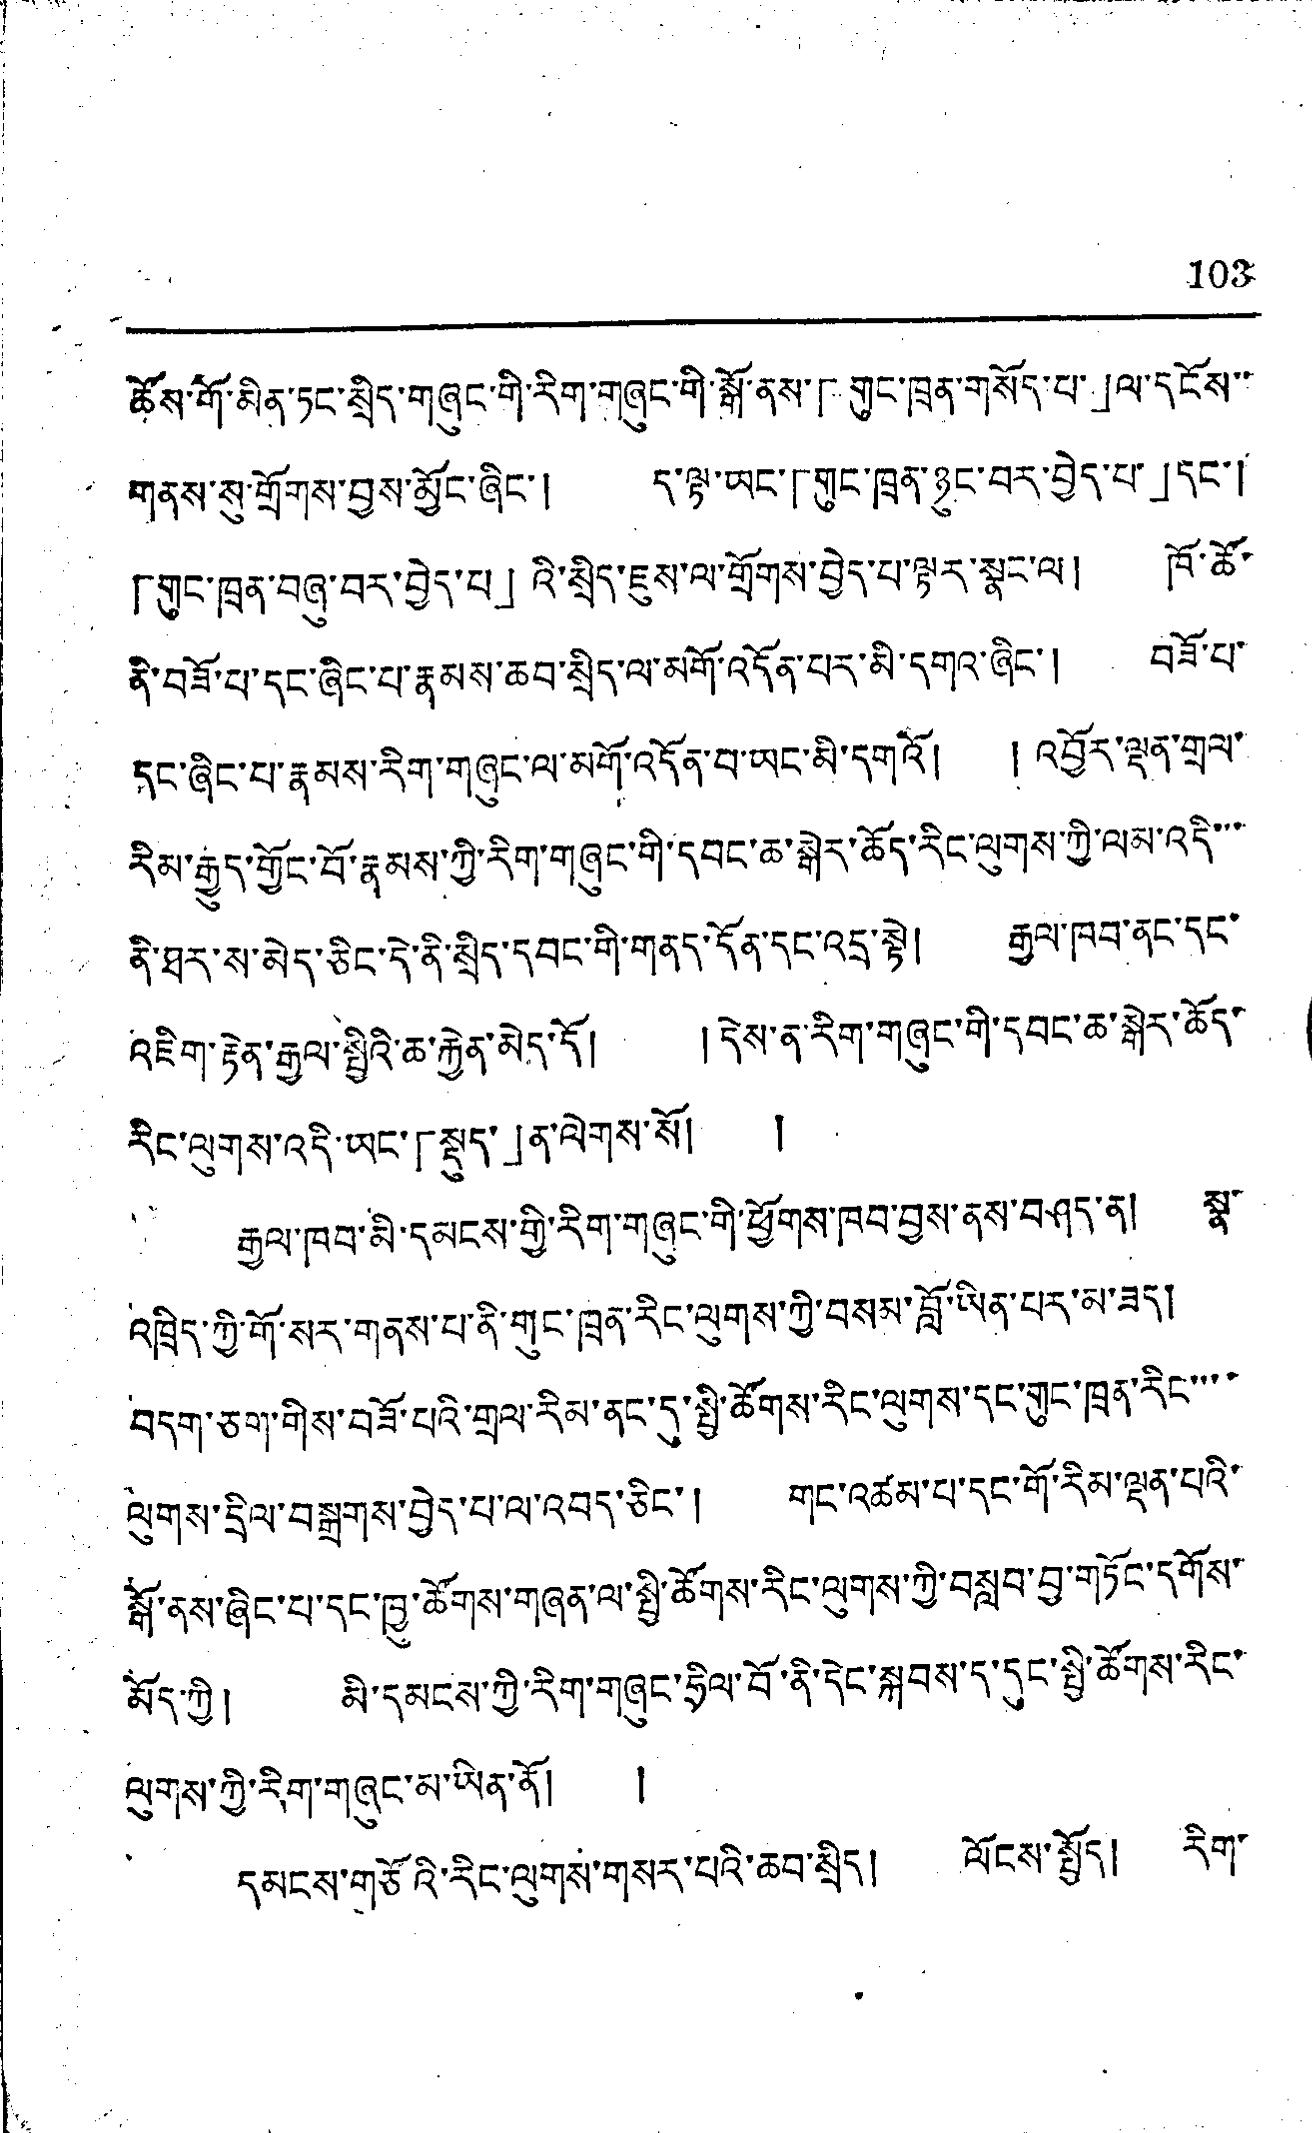103
ཚོས་གོ་མིན་ཏང་སྲིད་གཞུང་གི་རིག་གཞུང་གི་སྒོ་ནས་「གུང་ཁྲན་གསོད་པ་」ལ་དངོས་་
གནས་སུ་གྲོགས་བྱས་མྱོང་ཞིང་། ད་ལྟ་ཡང་「གུང་ཁྲན་ཉང་བར་བྱེད་པ་」དང་།
「གུང་ཁྲན་བཞུ་བར་བྱེད་པ」འི་སྲིད་ཇུས་ལ་གྲོགས་བྱེད་པ་ལྟར་སྣང་ལ། ཁོ་ཚོ་
ནི་བཟོ་པ་དང་ཞིང་པ་རྣམས་ཆབ་སྲིད་ལ་མགོ་འདོན་པར་མི་དགའ་ཞིང་། བཟོ་པ་
ཏང་ཞིང་པ་རྣམས་རིག་གཞུང་ལ་མགོ་འདོན་བ་ཡང་མི་དགའོ། །འབྱོར་ལྡན་གྲལ་
རིམ་རྒྱུད་གྱོང་བོ་རྣམས་ཀྱི་རིག་གཞུང་གི་དབང་ཆ་སྒེར་ཆོད་རིང་ལུགས་ཀྱི་ལམ་འདི་་་
ནི་ཐར་ས་མེད་ཅིང་དེ་ནི་སྲིད་དབང་གི་གནད་དོན་དང་འདྲ་སྟེ། རྒྱལ་ཁབ་ནང་དང་
འཇིག་རྟེན་རྒྱལ་སྤྱིའི་ཆ་རྐྱེན་མེད་དོ། །དེས་ན་རིག་གཞུང་གི་དབང་ཆ་སྒེར་ཆོད་
རིང་ལུགས་འདི་ཡང་「སྡུད་」ན་ལེགས་སོ། །
རྒྱལ་ཁབ་མི་དམངས་གྱི་རིག་གཞུང་གི་ཕྱོགས་ཁབ་བྱས་ནས་བཤད་ན། སྣ་
འཁྲིད་ཀྱི་གོ་སར་གནས་པ་ནི་གུང་ཁྲན་རིང་ལུགས་ཀྱི་བསམ་བློ་ཡིན་པར་མ་ཟད།
བདག་ཅག་གིས་བཟོ་པའི་གྲལ་རིམ་ནང་དུ་སྤྱི་ཚོགས་རིང་ལུགས་དང་གུང་ཁྲན་རིང་་་་
ལུགས་དྲིལ་བསྒྲགས་བྱེད་པ་ལ་འབད་ཅིང་། གང་འཚམ་པ་དང་གོ་རིམ་ལྡན་པའི་
སྒོ་ནས་ཞིང་པ་དང་ཁྱུ་ཚོགས་གཞན་ལ་སྤྱི་ཚོགས་རིང་ལུགས་ཀྱི་བསླབ་བྱ་གཏོང་དགོས་
མོད་ཀྱི། མི་དམངས་ཀྱི་རིག་གཞུང་ཧྲིལ་བོ་ནི་དེང་སྐབས་ད་དུང་སྤྱི་ཚོགས་རིང་
ལུགས་ཀྱི་རིག་གཞུང་མ་ཡིན་ནོ། །
དམངས་གཙོའི་རིང་ལུགས་གསར་པའི་ཆབ་སྲིད། ལོངས་སྤྱོད། རིག་
